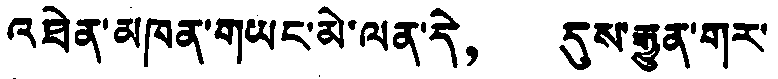འཐེན་མཁན་གཡང་མེ་ལན་དེ， དུས་རྒྱུན་གར་
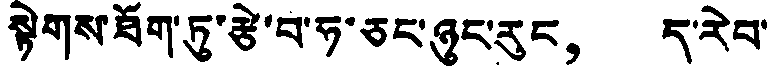སྟེགས་ཐོག་ཏུ་རྩེ་བ་ཧ་ཅང་ཉུང་རུང， ད་རེབ་
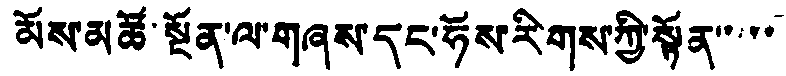མོས་མཚོ་སྔོན་ལ་གཞས་དང་ཧོས་རིགས་ཀྱི་སྟོན་་་་་
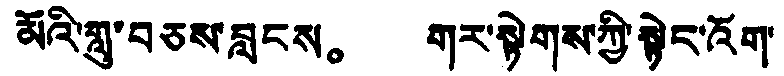མོའི་གླུ་བཅས་བླངས。 གར་སྟེགས་ཀྱི་སྟེང་འོག་
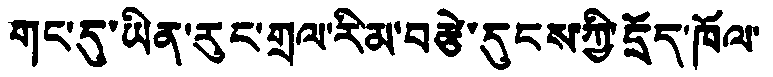གང་དུ་ཡིན་རུང་གྲལ་རིམ་བརྩེ་དུངས་ཀྱི་དྲོད་ཁོལ་
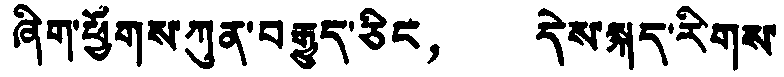ཞིག་ཕྱོགས་ཀུན་བརྒྱུད་ཅིང， དེས་སྐད་རིགས་
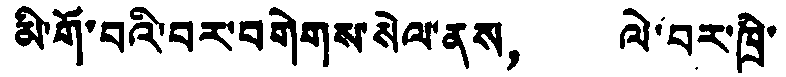མི་གོ་བའི་བར་བགེགས་སེལ་ནས， ལེ་བར་ཁྲི་
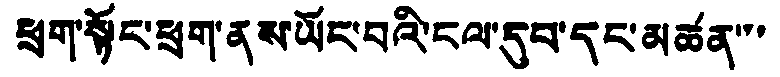ཕྲག་སྟོང་ཕྲག་ནས་ཡོང་བའི་ངལ་དུབ་དང་མཚན་་་
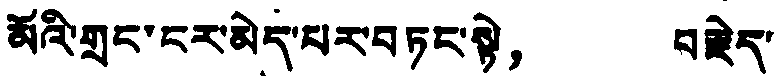མོའི་གྲང་ངར་མེད་པར་བཏང་སྟེ， བརྗེད་
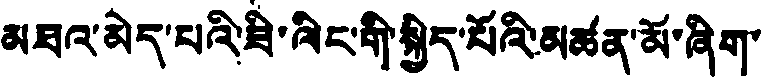མཐའ་མེད་པའི་ཟི་ལིང་གི་སྐྱིད་པོའི་མཚན་མོ་ཞིག་
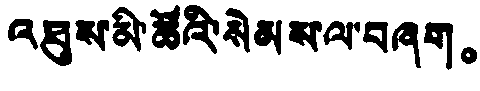འཐུས་མི་ཚོའི་སེམས་ལ་བཞག。
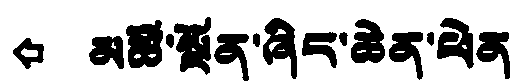🠸 མཚོ་སྔོན་ཞིང་ཆེན་ཕེན
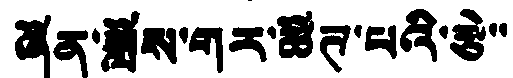ཞོན་ཟློས་གར་ཚོཊ་པའི་རྩེ་་
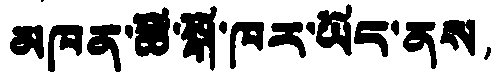མཁན་ཚོ་སྒོ་ཁར་ཡོང་ནས，
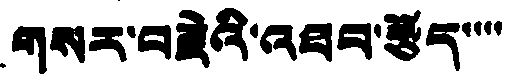གསར་བརྗེའི་འབབ་རྩོད་་་་
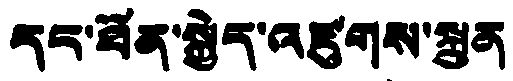དང་ཐོན་སྐྱེད་འཛུགས་སྐྲུན
